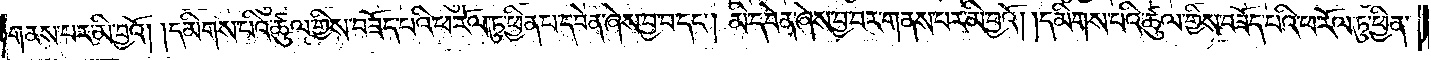གནས་པར་མི་བྱའོ། །དམིགས་པའི་ཚུལ་གྱིས་བཟོད་པའི་ཕ་རོལ་ཏུ་ཕྱིན་པ་དབེན་ཞེས་བྱ་བ་དང༌། མི་དབེན་ཞེས་བྱ་བར་གནས་པར་མི་བྱའོ། །དམིགས་པའི་ཚུལ་གྱིས་བཟོད་པའི་ཕ་རོལ་ཏུ་ཕྱིན་
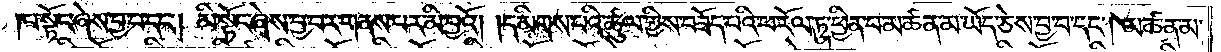པ་སྟོང་ཞེས་བྱ་བ་དང༌། མི་སྟོང་ཞེས་བྱ་བར་གནས་པར་མི་བྱའོ། །དམིགས་པའི་ཚུལ་གྱིས་བཟོད་པའི་ཕ་རོལ་ཏུ་ཕྱིན་པ་མཚན་མ་ཡོད་ཅེས་བྱ་བ་དང༌། མཚན་མ་
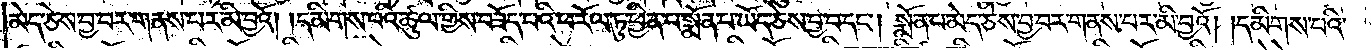མེད་ཅེས་བྱ་བར་གནས་པར་མི་བྱའོ། །དམིགས་པའི་ཚུལ་གྱིས་བཟོད་པའི་ཕ་རོལ་ཏུ་ཕྱིན་པ་སྨོན་པ་ཡོད་ཅེས་བྱ་བ་དང༌། སྨོན་པ་མེད་ཅེས་བྱ་བར་གནས་པར་མི་བྱའོ། །དམིགས་པའི་
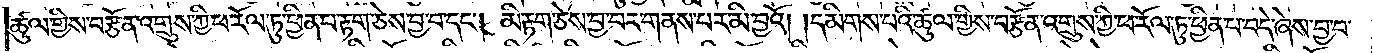ཚུལ་གྱིས་བརྩོན་འགྲུས་ཀྱི་ཕ་རོལ་ཏུ་ཕྱིན་པ་རྟག་ཅེས་བྱ་བ་དང༌། མི་རྟག་ཅེས་བྱ་བར་གནས་པར་མི་བྱའོ། །དམིགས་པའི་ཚུལ་གྱིས་བརྩོན་འགྲུས་ཀྱི་ཕ་རོལ་ཏུ་ཕྱིན་པ་བདེ་ཞེས་བྱ་བ་
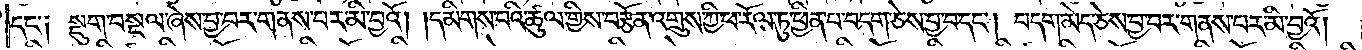དང༌༏ སྡུག་བསྔལ་ཞེས་བྱ་བར་གནས་པར་མི་བྱའོ། །དམིགས་པའི་ཚུལ་གྱིས་བརྩོན་འགྲུས་ཀྱི་ཕ་རོལ་ཏུ་ཕྱིན་པ་བདག་ཅེས་བྱ་བ་དང༌། བདག་མེད་ཅེས་བྱ་བར་གནས་པར་མི་བྱའོ། །
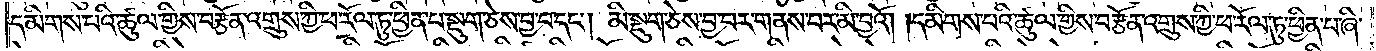དམིགས་པའི་ཚུལ་གྱིས་བརྩོན་འགྲུས་ཀྱི་ཕ་རོལ་ཏུ་ཕྱིན་པ་སྡུག་ཅེས་བྱ་བ་དང༌། མི་སྡུག་ཅེས་བྱ་བར་གནས་པར་མི་བྱའོ། །དམིགས་པའི་ཚུལ་གྱིས་བརྩོན་འགྲུས་ཀྱི་ཕ་རོལ་ཏུ་ཕྱིན་པ་ཞི་
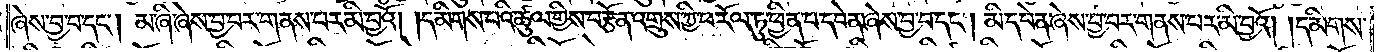ཞེས་བྱ་བ་དང༌། མ་ཞི་ཞེས་བྱ་བར་གནས་པར་མི་བྱའོ། །དམིགས་པའི་ཚུལ་གྱིས་བརྩོན་འགྲུས་ཀྱི་ཕ་རོལ་ཏུ་ཕྱིན་པ་དབེན་ཞེས་བྱ་བ་དང༌། མི་དབེན་ཞེས་བྱ་བར་གནས་པར་མི་བྱའོ། །དམིགས་
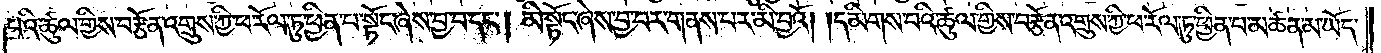པའི་ཚུལ་གྱིས་བརྩོན་འགྲུས་ཀྱི་ཕ་རོལ་ཏུ་ཕྱིན་པ་སྟོང་ཞེས་བྱ་བ་དང༌། མི་སྟོང་ཞེས་བྱ་བར་གནས་པར་མི་བྱའོ། །དམིགས་པའི་ཚུལ་གྱིས་བརྩོན་འགྲུས་ཀྱི་ཕ་རོལ་ཏུ་ཕྱིན་པ་མཚན་མ་ཡོད་
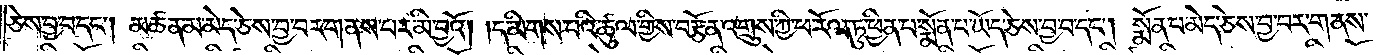ཅེས་བྱ་བ་དང༌། མཚན་མ་མེད་ཅེས་བྱ་བར་གནས་པར་མི་བྱའོ། །དམིགས་པའི་ཚུལ་གྱིས་བརྩོན་འགྲུས་ཀྱི་ཕ་རོལ་ཏུ་ཕྱིན་པ་སྨོན་པ་ཡོད་ཅེས་བྱ་བ་དང༌། སྨོན་པ་མེད་ཅེས་བྱ་བར་གནས་
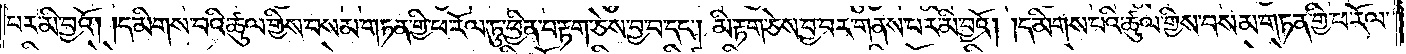པར་མི་བྱའོ། །དམིགས་པའི་ཚུལ་གྱིས་བསམ་གཏན་གྱི་ཕ་རོལ་ཏུ་ཕྱིན་པ་རྟག་ཅེས་བྱ་བ་དང༌། མི་རྟག་ཅེས་བྱ་བར་གནས་པར་མི་བྱའོ། །དམིགས་པའི་ཚུལ་གྱིས་བསམ་གཏན་གྱི་ཕ་རོལ་
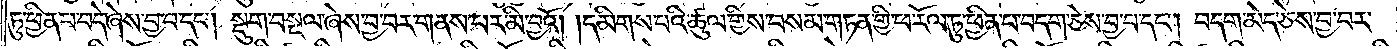ཏུ་ཕྱིན་པ་བདེ་ཞེས་བྱ་བ་དང༌། སྡུག་བསྔལ་ཞེས་བྱ་བར་གནས་པར་མི་བྱའོ། །དམིགས་པའི་ཚུལ་གྱིས་བསམ་གཏན་གྱི་ཕ་རོལ་ཏུ་ཕྱིན་པ་བདག་ཅེས་བྱ་བ་དང༌། བདག་མེད་ཅེས་བྱ་བར་
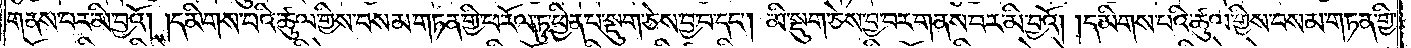གནས་པར་མི་བྱའོ། །དམིགས་པའི་ཚུལ་གྱིས་བསམ་གཏན་གྱི་ཕ་རོལ་ཏུ་ཕྱིན་པ་སྡུག་ཅེས་བྱ་བ་དང༌། མི་སྡུག་ཅེས་བྱ་བར་གནས་པར་མི་བྱའོ། །དམིགས་པའི་ཚུལ་གྱིས་བསམ་གཏན་གྱི་
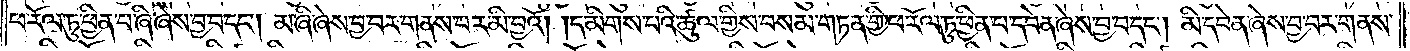ཕ་རོལ་ཏུ་ཕྱིན་པ་ཞི་ཞེས་བྱ་བ་དང༌། མ་ཞི་ཞེས་བྱ་བར་གནས་པར་མི་བྱའོ། །དམིགས་པའི་ཚུལ་གྱིས་བསམ་གཏན་གྱི་ཕ་རོལ་ཏུ་ཕྱིན་པ་དབེན་ཞེས་བྱ་བ་དང༌། མི་དབེན་ཞེས་བྱ་བར་གནས་
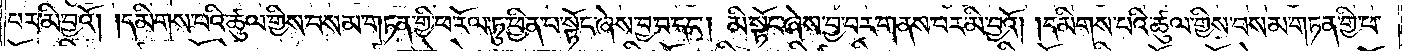པར་མི་བྱའོ། །དམིགས་པའི་ཚུལ་གྱིས། བསམ་གཏན་གྱི་ཕ་རོལ་ཏུ་ཕྱིན་པ་སྟོང་ཞེས་བྱ་བ་དང༌། མི་སྟོང་ཞེས་བྱ་བར་གནས་པར་མི་བྱའོ། །དམིགས་པའི་ཚུལ་གྱིས། བསམ་གཏན་གྱི་ཕ་
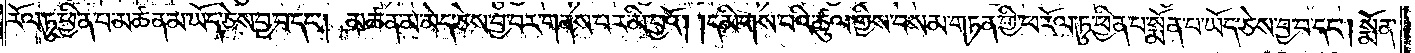རོལ་ཏུ་ཕྱིན་པ་མཚན་མ་ཡོད་ཅེས་བྱ་བ་དང༌། མཚན་མ་མེད་ཅེས་བྱ་བར་གནས་པར་མི་བྱའོ། །དམིགས་པའི་ཚུལ་གྱིས་བསམ་གཏན་གྱི་ཕ་རོལ་ཏུ་ཕྱིན་པ་སྨོན་པ་ཡོད་ཅེས་བྱ་བ་དང༌། སྨོན་
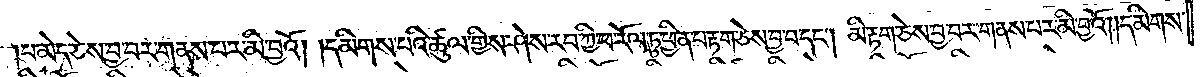པ་མེད་ཅེས་བྱ་བར་གནས་པར་མི་བྱའོ། །དམིགས་པའི་ཚུལ་གྱིས་ཤེས་རབ་ཀྱི་ཕ་རོལ་ཏུ་ཕྱིན་པ་རྟག་ཅེས་བྱ་བ་དང༌། མི་རྟག་ཅེས་བྱ་བར་གནས་པར་མི་བྱའོ། །དམིགས་
